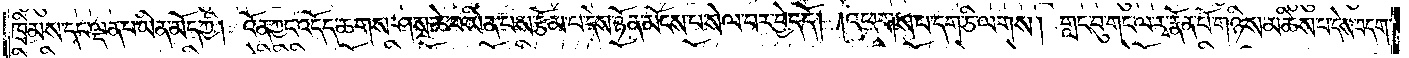ཁྲིམས་དང་ལྡན་པ་ཡིན་མོད་ཀྱི། འོན་ཀྱང་འདོད་ཆགས་ཤས་ཆེ་བ་ཡིན་པས་རྩོམ་པ་དེས་ཉོན་མོངས་པ་སེལ་བར་བྱེད་དོ། །འཕགས་པ་དག་ཅི་ལགས། གླང་བུ་གང་ལ་རྭ་རྣོན་པོ་གཉིས་མཆིས་པ་དེས་བདག་
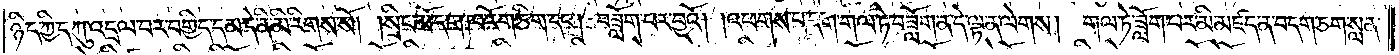ཉིད་ཀྱི་དཀུ་འདྲལ་བར་བགྱིད་དམ་དེ་ནི་མི་རིགས་སོ། །སྲིང་མོ་དག་ཁ་རོག་ཅིག་དང༌། བཟློག་པར་བྱའོ། །འཕགས་པ་དག་གལ་ཏེ་བཟློག་ན་དེ་ལྟ་ན་ལེགས། གལ་ཏེ་ཟློག་པར་མི་མཛད་ན་བདག་ཅག་སླན་
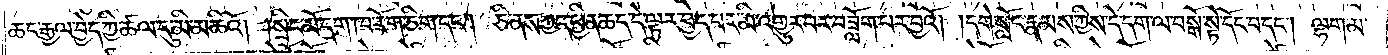ཆད་རྒྱལ་བྱེད་ཀྱི་ཚལ་དུ་མི་མཆིའོ། །སྲིང་མོ་དག་ཁ་རོག་ཅིག་དང༌། ཅི་ནས་ཀྱང་ཕྱིན་ཆད་དེ་ལྟར་བྱེད་པར་མི་འགྱུར་བར་བཟློག་པར་བྱའོ། །དགེ་སློང་རྣམས་ཀྱིས་དེ་དག་ལ་བསྒོ་སྟེ་དོང་བ་དང༌། ལྷག་མ་
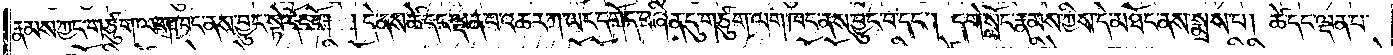རྣམས་ཀྱང་གཙུག་ལག་ཁང་ནས་བྱུང་སྟེ་དོང་ངོ༌། །དེ་ནས་ཚེ་དང་ལྡན་པ་འཆར་ཀ་ཡང་དགོད་བཞིན་དུ་གཙུག་ལག་ཁང་ནས་བྱུང་བ་དང༌། དགེ་སློང་རྣམས་ཀྱིས་དེ་མཐོང་ནས་སྨྲས་པ། ཚེ་དང་ལྡན་པ་
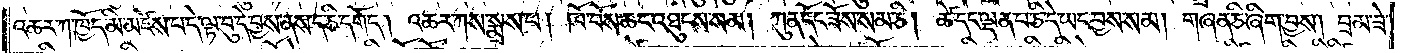འཆར་ཀ་ཁྱོད་མི་མཛེས་པ་དེ་ལྟ་བུ་དེ་བྱས་ནས་ད་ཅི་དགོད། འཆར་ཀས་སྨྲས་པ། ཁོ་བོས་ཆང་འཐུངས་སམ། ཀུན་དོང་ཟོས་སམ་ཅི། ཚེ་དང་ལྡན་པ་ཅི་དེ་ཡང་བྱས་སམ། གཞན་ཅི་ཞིག་བྱས། བྲམ་ཟེ་
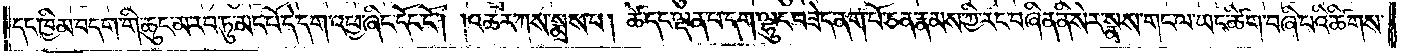དང་ཁྱིམ་བདག་གི་ཆུང་མ་རབ་ཏུ་མང་པོ་དེ་དག་འཕྱ་ཞིང་དོང་ངོ༌། །འཆར་ཀས་སྨྲས་པ། ཚེ་དང་ལྡན་པ་དག་ལྷུང་བཟེད་ནག་པོ་ཅན་རྣམས་ཀྱི་རང་བཞིན་ནི་སེར་སྣས་གང་ལ་ཡང་ཚིག་བཞི་པའི་ཚིགས་
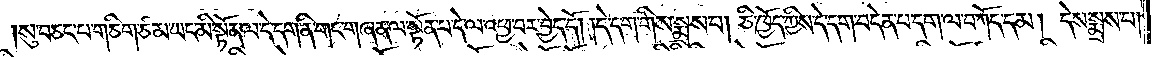སུ་བཅད་པ་གཅིག་ཙམ་ཡང་མི་སྟོན་ལ་དེ་དག་ནི་གང་གཞན་ལ་སྟོན་པ་དེ་ལ་འཕྱ་བར་བྱེད་དོ། །དེ་དག་གིས་སྨྲས་པ། ཅི་ཁྱོད་ཀྱིས་དེ་དག་བདེན་པ་དག་ལ་བཀོད་དམ། དེས་སྨྲས་པ།
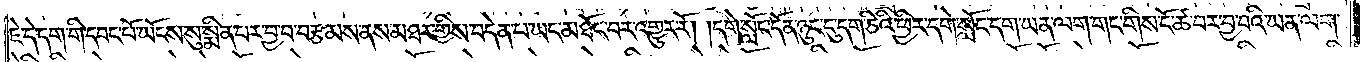ཇེ་དེ་དག་གི་དབང་པོ་ཡོངས་སུ་སྨིན་པར་བྱ་བ་བརྩམས་ནས་མཐར་གྱིས་བདེན་པ་ཡང་མཐོང་བར་འགྱུར་རོ། །དགེ་སློང་དོན་ཉུང་ངུ་དག་ཅིའི་ཕྱིར་དགེ་སློང་དག་ཡན་ལག་གང་གིས་ངོ་ཚ་བར་བྱ་བའི་ཡན་ལག་
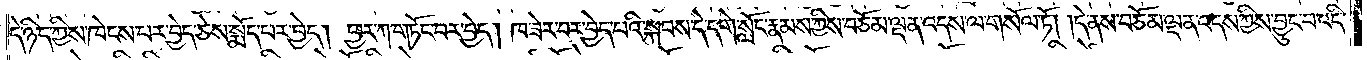དེ་ཉིད་ཀྱིས་ཁེངས་པར་བྱེད་ཅེས་སྨོད་པར་བྱེད། ཕྱར་ཀ་གཏོང་བར་བྱེད། ཁ་ཟེར་བར་བྱེད་པའི་སྐབས་དེ་དགེ་སློང་རྣམས་ཀྱིས་བཅོམ་ལྡན་འདས་ལ་གསོལ་ཏོ། །དེ་ནས་བཅོམ་ལྡན་འདས་ཀྱིས་བྱུང་བ་འདི་
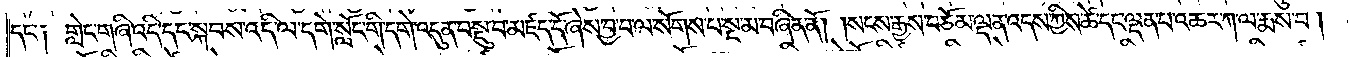དང་༑ གླེང་གཞི་འདི་དང་སྐབས་འདི་ལ་དགེ་སློང་གི་དགེ་འདུན་བསྡུ་བ་མཛད་དོ་ཞེས་བྱ་བ་ལ་སོགས་པ་སྔ་མ་བཞིན་ནོ། །སངས་རྒྱས་བཅོམ་ལྡན་འདས་ཀྱིས་ཚེ་དང་ལྡན་པ་འཆར་ཀ་ལ་རྨས་པ།
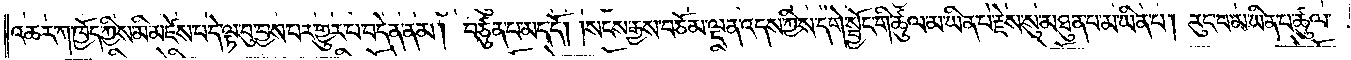འཆར་ཀ་ཁྱོད་ཀྱིས་མི་མཛེས་པ་དེ་ལྟ་བུ་བྱས་པར་གྱུར་པ་བདེན་ནམ། བཙུན་པ་མད་དོ། །སངས་རྒྱས་བཅོམ་ལྡན་འདས་ཀྱིས་དགེ་སྦྱོང་གི་ཚུལ་མ་ཡིན་པ་རྗེས་སུ་མཐུན་པ་མ་ཡིན་པ། རུང་བ་མ་ཡིན་པ་ཚུལ་
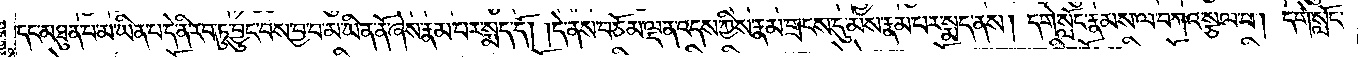དང་མཐུན་པ་མ་ཡིན་པ་དེ་ནི་རབ་ཏུ་བྱུང་བས་བྱ་བ་མ་ཡིན་ནོ་ཞེས་རྣམ་པར་སྨད་དོ། །དེ་ནས་བཅོམ་ལྡན་འདས་ཀྱིས་རྣམ་གྲངས་དུ་མས་རྣམ་པར་སྨད་ནས། དགེ་སློང་རྣམས་ལ་བཀའ་སྩལ་པ། དགེ་སློང་
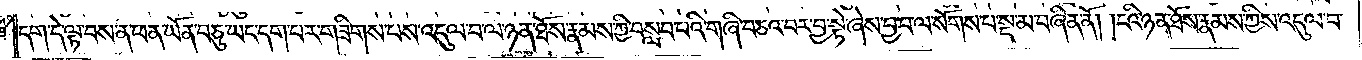དག་དེ་ལྟ་བས་ན་ཕན་ཡོན་བཅུ་ཡང་དག་པར་གཟིགས་པས་འདུལ་བ་ལ་ཉན་ཐོས་རྣམས་ཀྱི་བསླབ་པའི་གཞི་བཅའ་བར་བྱ་སྟེ་ཞེས་བྱ་བ་ལ་སོགས་པ་སྔ་མ་བཞིན་ནོ། །ངའི་ཉན་ཐོས་རྣམས་ཀྱིས་འདུལ་བ་
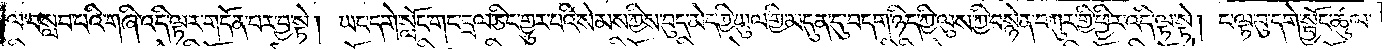ལ་བསླབ་པའི་གཞི་འདི་ལྟར་གདོན་པར་བྱ་སྟེ། ཡང་དགེ་སློང་གང་དྲལ་ཅིང་གྱུར་པའི་སེམས་ཀྱིས་བུད་མེད་ཀྱི་ཡུལ་གྱི་མདུན་དུ་བདག་ཉིད་ལུས་ཀྱི་བསྙེན་བཀུར་གྱི་ཕྱིར་འདི་ལྟ་སྟེ། ང་ལྟ་བུ་དགེ་སྦྱོང་ཚུལ་
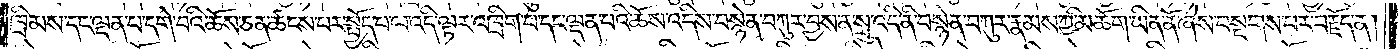ཁྲིམས་དང་ལྡན་པ་དགེ་བའི་ཆོས་ཅན་ཚངས་པར་སྤྱོད་པ་ལ་འདི་ལྟར་འཁྲིག་པ་དང་ལྡན་པའི་ཆོས་འདིས་བསྙེན་བཀུར་བྱས་ན་སྲུ་འདི་ནི་བསྙེན་བཀུར་རྣམས་ཀྱི་མཆོག་ཡིན་ནོ་ཞེས་བསྔགས་པར་བརྗོད་ན།
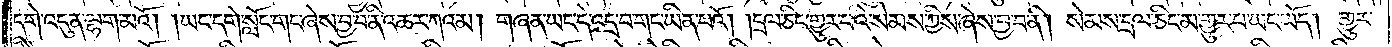དགེ་འདུན་ལྷག་མའོ། །ཡང་དགེ་སློང་གང་ཞེས་བྱ་བ་ནི་འཆར་ཀའམ། གཞན་ཡང་དེ་འདྲ་བ་གང་ཡིན་པའོ། །དྲལ་ཅིང་གྱུར་པའི་སེམས་ཀྱིས་ཞེས་བྱ་བ་ནི། སེམས་དྲལ་ཅིང་མ་གྱུར་པ་ཡང་ཡོད། གྱུར་
